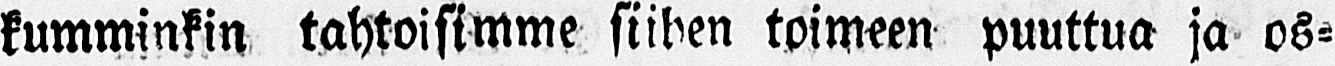kumminkin tahtoisimme siihen toimeen puuttua ja os-
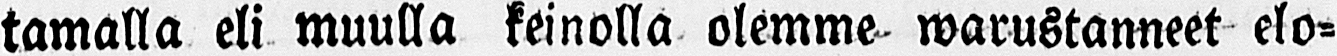tamalla eli muulla keinolla olemme warustanneet elo-
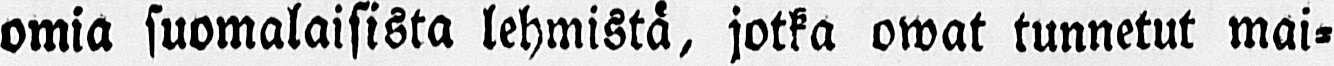omia suomalaisista lehmistä, jotka owat tunnetut mai-
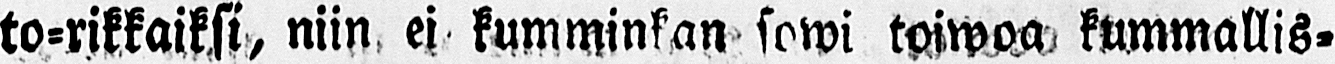to-rikkaiksi, niin ei kumminkan sowi toiwoa kummallis-
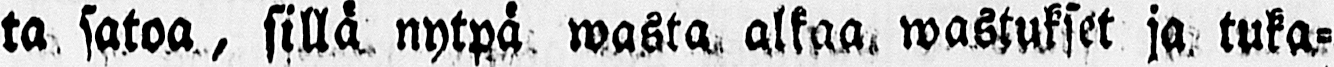ta satoa, sillä, nytpä wasta alkaa, wastukset ja tuka-
